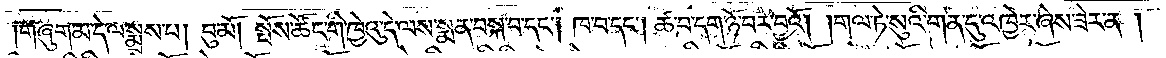།གཞུག་མ་དེ་ལ་སྨྲས་པ། བུ་མོ། སྤོས་ཚོང་གི་ཁྱེའུ་དེ་ལས་སྨན་བསྐ་བ་དང༌། ཁ་བ་དང༌། ཚ་བ་དག་ཉོ་བར་བྱའོ། །གལ་ཏེ་སུའི་གན་དུ་འཁྱེར་ཞེས་ཟེར་ན།
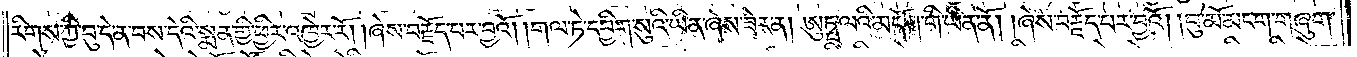རིགས་ཀྱི་བུ་དེ་ན་བས་དེའི་སྨན་གྱི་ཕྱིར་འཁྱེར་རོ། །ཞེས་བརྗོད་པར་བྱའོ། །གལ་ཏེ་དབྱིག་སུའི་ཡིན་ཞེས་ཟེར་ན། ཨུཏྤ་ལའི་མདོག་གི་ཡིན་ནོ། །ཞེས་བརྗོད་པར་བྱའོ། །བུ་མོ་མངག་གཞུག་
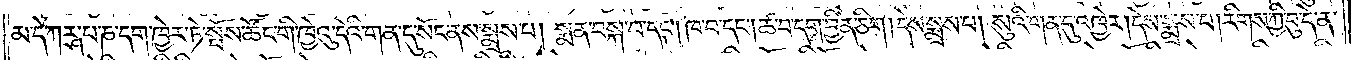མ་དེ་ཀཪྴ་པ་ཎ་དག་ཁྱེར་ཏེ་སྤོས་ཚོང་གི་ཁྱེའུ་དེའི་གན་དུ་སོང་ནས་སྨྲས་པ། སྨན་བསྐ་བ་དང༌། ཁ་བ་དང༌། ཚ་བ་དག་བྱིན་ཅིག །དེས་སྨྲས་པ། སུའི་གན་དུ་འཁྱེར། དེས་སྨྲས་པ། རིགས་ཀྱི་བུ་དེ་ན་
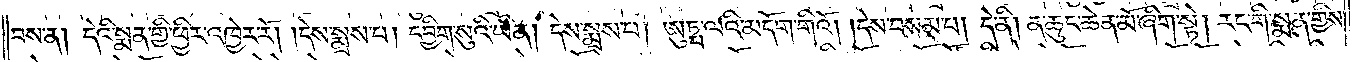བས་ན། དེའི་སྨན་གྱི་ཕྱིར་འཁྱེར་རོ། །དེས་སྨྲས་པ། དབྱིག་སུའི་ཡིན། །དེས་སྨྲས་པ། ཨུཏྤ་ལའི་མདོག་གིའོ། །དེས་བསམ་པ། དེ་ནི། ན་ཆུང་ཆེན་མོ་ཞིག་སྟེ། རང་གི་སྨན་གྱིས་
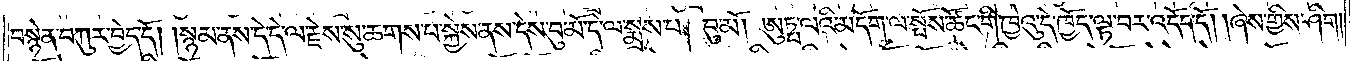བསྙེན་བཀུར་བྱེད་དོ། །སྙམ་ནས་དེ་དེ་ལ་རྗེས་སུ་ཆགས་པ་སྐྱེས་ནས་དེས་བུ་མོ་དེ་ལ་སྨྲས་པ། བུ་མོ། ཨུཏྤ་ལའི་མདོག་ལ་སྤོས་ཚོང་གི་ཁྱེའུ་དེ་ཁྱོད་ལྟ་བར་འདོད་དོ། །ཞེས་གྱིས་ཤིག།
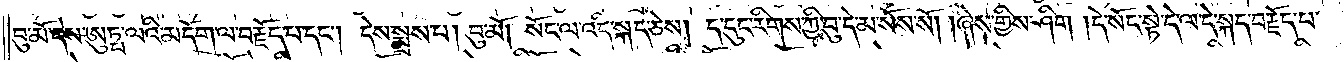བུ་མོ་དེས་ཨུཏྤ་ལའི་མདོག་ལ་བརྗོད་པ་དང༌། དེས་སྨྲས་པ། བུ་མོ། སོང་ལ་འདི་སྐད་ཅེས། ད་དུང་རིགས་ཀྱི་བུ་དེ་མ་སོས་སོ། །ཞེས་གྱིས་ཤིག །དེ་སོང་སྟེ་དེ་ལ་དེ་སྐད་བརྗོད་པ་
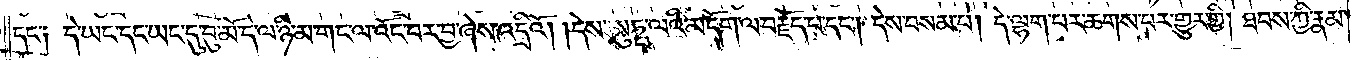དང༌། དེ་ཡང་དང་ཡང་དུ་བུ་མོ་དེ་ལ་ཉི་མ་གང་ལ་འོང་བར་བྱ་ཞེས་འདྲིའོ། །དེས་ཨུཏྤ་ལའི་མདོག་ལ་བརྗོད་པ་དང༌། དེས་བསམ་པ། དེ་ལྷག་པར་ཆགས་པར་གྱུར་གྱི། ཐབས་ཀྱི་རྣམ་
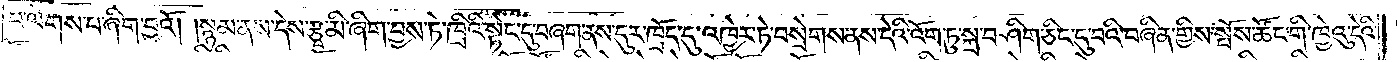པ་ལགས་པ་ཞིག་བྱའོ། །སྙམ་ནས་དེས་རྩྭ་མི་ཞིག་བྱས་ཏེ་ཁྲིའི་སྟེང་དུ་བཞག་ནས་དུར་ཁྲོད་དུ་འཁྱེར་ཏེ་བསྲེགས་ནས་དེའི་འོག་ཏུ་སྐྲ་བཤིག་ཅིང་དུ་བའི་བཞིན་གྱིས་སྤོས་ཚོང་གི་ཁྱེའུ་དེའི་
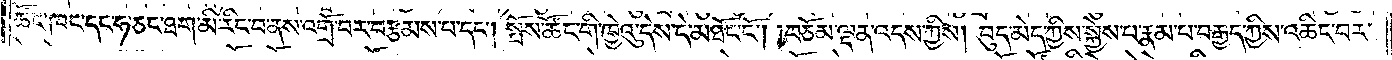ཚོང་ཁང་དང་ཧ་ཅང་ཐག་མི་རིང་བ་ནས་འགྲོ་བར་བརྩམས་པ་དང༌། སྤོས་ཚོང་གི་ཁྱེའུ་དེས་དེ་མཐོང་ངོ༌། །བཅོམ་ལྡན་འདས་ཀྱིས། བུད་མེད་ཀྱིས་སྐྱེས་པ་རྣམ་པ་བརྒྱད་ཀྱིས་འཆིང་བར་
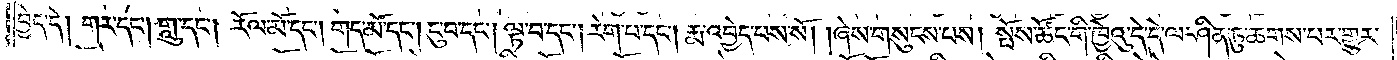བྱེད་དེ། གར་དང༌། གླུ་དང༌། རོལ་མོ་དང༌། གད་མོ་དང༌། ངུ་བ་དང༌། ལྟ་བ་དང༌། རེག་པ་དང༌། རྨ་འབྱེད་པས་སོ། །ཞེས་གསུངས་པས། སྤོས་ཚོང་གི་ཁྱེའུ་དེ་དེ་ལ་ཤིན་ཏུ་ཆགས་པར་གྱུར་
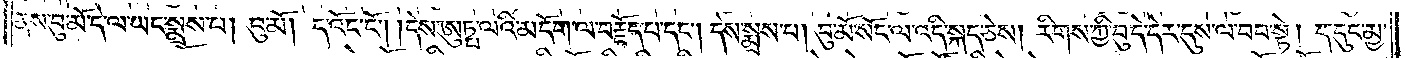ནས་བུ་མོ་དེ་ལ་ཡང་སྨྲས་པ། བུ་མོ། ད་འོང་ངོ༌། །དེས་ཨུཏྤ་ལའི་མདོག་ལ་བརྗོད་པ་དང༌། དེས་སྨྲས་པ། བུ་མོ་སོང་ལ་འདི་སྐད་ཅེས། རིགས་ཀྱི་བུ་དེ་དེར་དུས་ལ་བབ་སྟེ། ད་དུང་མྱ་
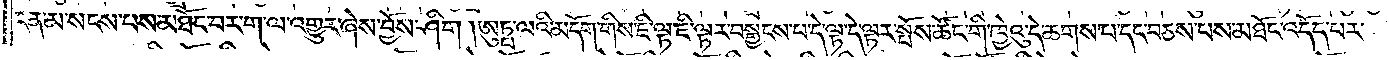ངན་མ་སངས་པས་མཐོང་བར་ག་ལ་འགྱུར་ཞེས་བྱོས་ཤིག །ཨུཏྤ་ལའི་མདོག་གིས་ཇི་ལྟ་ཇི་ལྟར་བསྒྱངས་པ་དེ་ལྟ་དེ་ལྟར་སྤོས་ཚོང་གི་ཁྱེའུ་དེ་ཆགས་པ་དང་བཅས་པས་མཐོང་འདོད་པར་
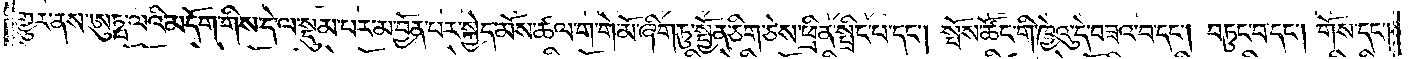གྱུར་ནས་ཨུཏྤ་ལའི་མདོག་གིས་དེ་ལ་སྡུམ་པར་མ་བྱོན་པར་སྐྱེད་མོས་ཚལ་ག་གེ་མོ་ཞིག་ཏུ་སྤྱོན་ཅིག་ཅེས་ཕྲིན་སྤྲིང་པ་དང༌། སྤོས་ཚོང་གི་ཁྱེའུ་དེ་བཟའ་བ་དང༌། བཏུང་བ་དང༌། གོས་དང༌།
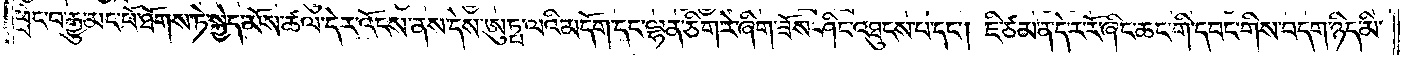ཕྲེང་བ་རྒྱུ་མང་པོ་ཐོགས་ཏེ་སྐྱེད་མོས་ཚལ་དེར་འོངས་ནས་དེས་ཨུཏྤ་ལའི་མདོག་དང་ལྷན་ཅིག་རེ་ཞིག་ཟོས་ཤིང་འཐུངས་པ་དང༌། ཇི་ཙམ་ན་དེར་རོ་ཞིང་ཆང་གི་དབང་གིས་བདག་ཉིད་མི་
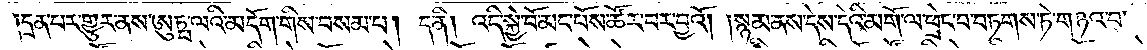དྲན་པར་གྱུར་ནས་ཨུཏྤ་ལའི་མདོག་གིས་བསམ་པ། ད་ནི། འདི་སྐྱེ་བོ་མང་པོས་ཚོར་བར་བྱའོ། །སྙམ་ནས་དེས་དེའི་མགོ་ལ་ཕྲེང་བ་བཏགས་ཏེ་གཉའ་བ་
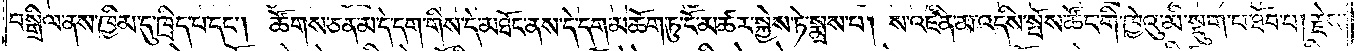བསྒྲིལ་ནས་ཁྱིམ་དུ་ཁྲིད་པ་དང༌། ཚོགས་ཅན་མ་དེ་དག་གིས་དེ་མཐོང་ནས་དེ་དག་མཆོག་ཏུ་ངོ་མཚར་སྐྱེས་ཏེ་སྨྲས་པ། ས་འཛིན་མ་འདིས་སྤོས་ཚོང་གི་ཁྱེའུ་མི་སྡུག་པ་ཐོབ་པ། རྗེས་
